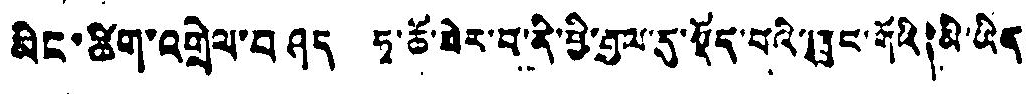མིང་ཚིག་འགྲེལ་བཤད ཧྭ་ཆོ་ཟེར་བ་ནི་ཕྱི་རྒྱལ་དུ་སྡོད་པའི་ཁྲུང་གོའི་མི་ཡིན
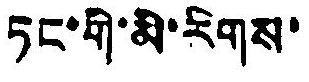ཏང་གི་མི་རིགས་
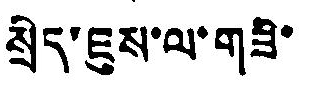སྲིད་ཇུས་ལ་གཟི་
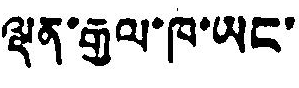ལྡན་རྒྱལ་ཁ་ཡང་
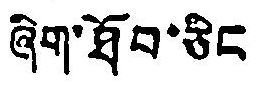ཞིག་ཐོབ་ཅིང
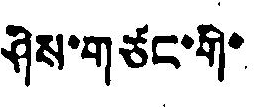ཤིས་གཙང་གི་
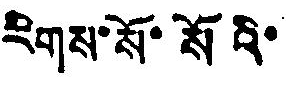རིགས་སོ་སོའི་
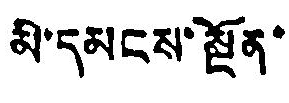མི་དམངས་སྔོན་
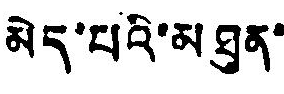མེད་པའི་མཐུན་
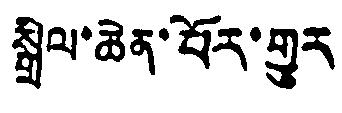སྒྲིལ་ཆེན་པོར་གྱུར
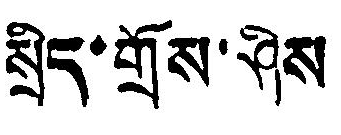སྲིད་གྲོས་ཤིས
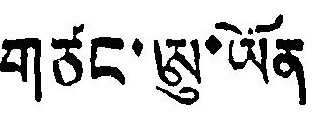གཙང་ཨུ་ཡོན
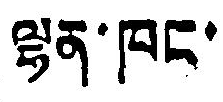ལྷན་ཁང་
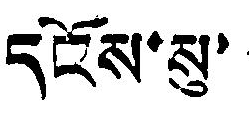དངོས་སུ་
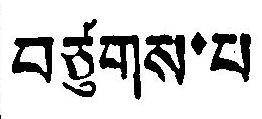བཙུགས་པ
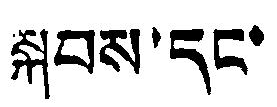སྐབས་དང་
